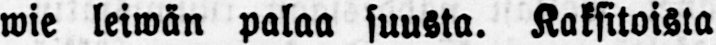wie leiwän palaa suusta. Kaksitoista
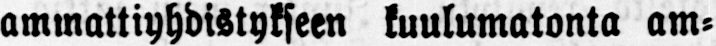ammattiyhdistykseen kuulumatonta am-
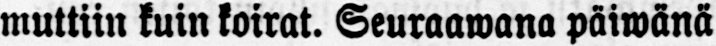muttiin kuin koirat. Seuraawana päiwänä
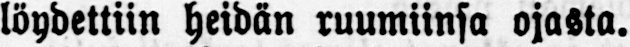löydettiin heidän ruumiinsa ojasta.
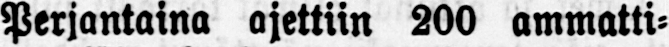Perjantaina ajettiin 200 ammatti-
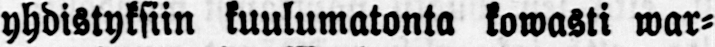yhdistyksiin kuulumatonta kowasti war-
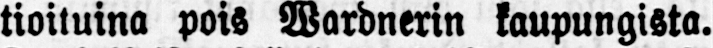tioituina pois Wardnerin kaupungista.
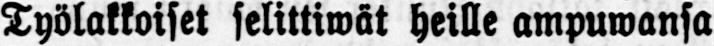Työlakkoiset selittiwät heille ampuwansa
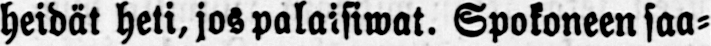heidät heti, jos palaisiwat. Spokoneen saa-
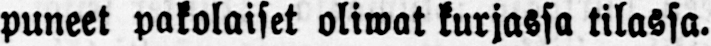puneet pakolaiset oliwat kurjassa tilassa.
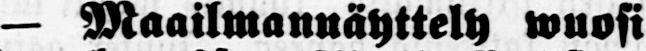— Maailmannäyttely wuosi
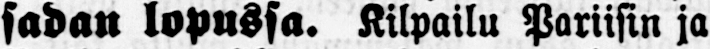sadan lopussa. Kilpailu Pariisin ja
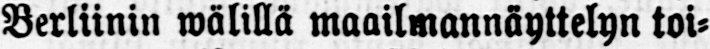Berliinin wälillä maailmannäyttelyn toi-
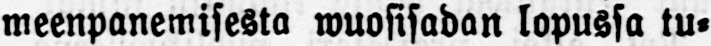meenpanemisesta wuosisadan lopussa tu-
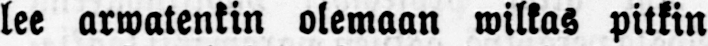lee arwatenkin olemaan wilkas pitkin
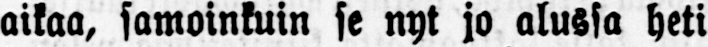aikaa, samoinkuin se nyt jo alussa heti
